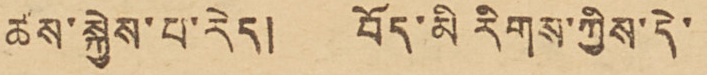ཚས་སྐྱེས་པ་རེད། བོད་མི རིགས་ཀྱིས་དེ་
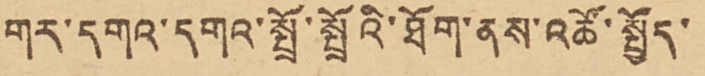གར་དགའ་དགའ་སྤྲོ་སྤྲོའི་ཐོག་ནས་འཚོ་སྤྱོད་
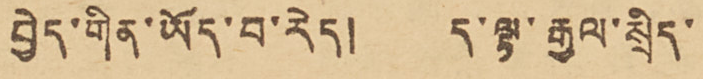བྱེད་གིན་ཡོད་བ་རེད། ད་ལྟ་རྒྱལ་སྲིད་
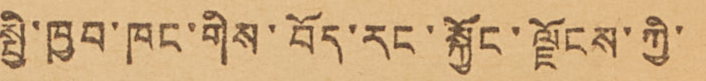སྤྱི་ཁྱབ་ཁང་གིས་བོད་རང་སྐྱོང་ལྗོངས་ཀྱི་
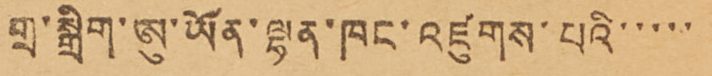གྲ་སྒྲིག་ཨུ་ཡོན་ལྷན་ཁང་འཛུགས་པའི་་་་་
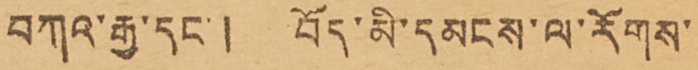བཀའ་རྒྱ་དང་། བོད་མི་དམངས་ལ་རོགས་
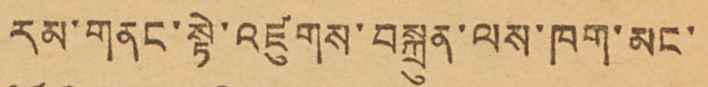རམ་གནང་སྟེ་འཛུགས་བསྐྲུན་ལས་ཁག་མང་
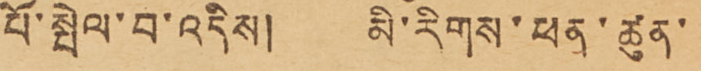པོ་སྤེལ་བ་འདིས། མི་རིགས་ཕན་ཚུན་
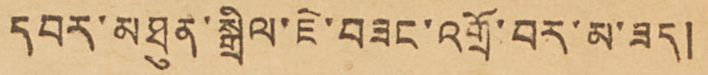དབར་མཐུན་སྒྲིལ་ཇེ་བཟང་འགྲོ་བར་མ་ཟད།
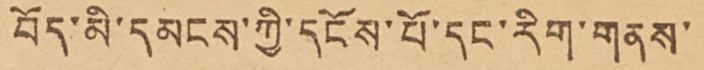བོད་མི་དམངས་ཀྱི་དངོས་པོ་དང་རིག་གནས་
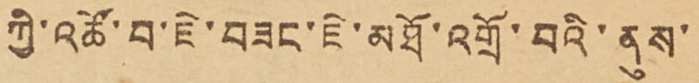ཀྱི་འཚོ་བ་ཇེ་བཟང་ཇེ་མཐོ་འགྲོ་བའི་ནུས་
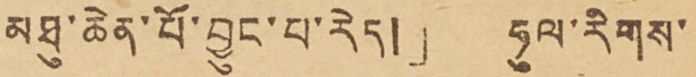མཐུ་ཆེན་པོ་བྱུང་པ་རེད།」 ཧུལ་རིགས་
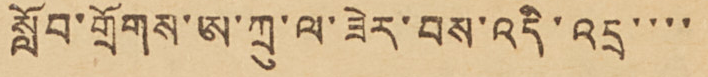སློབ་གྲོགས་ཨ་ཀྲུ་ལ་ཟེར་བས་འདི་འདྲ་་་་
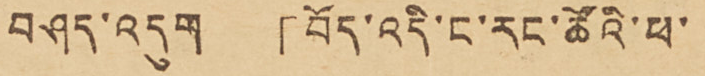བཤད་འདུག 「བོད་འདི་ང་རང་ཚོའི་ཕ་
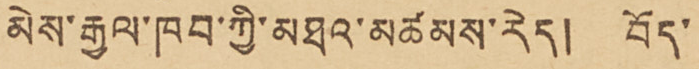མེས་རྒྱལ་ཁབ་ཀྱི་མཐའ་མཚམས་རེད། བོད་
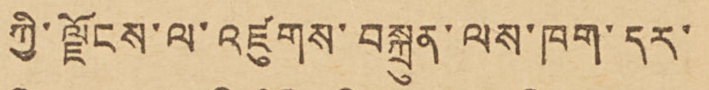ཀྱི་ལྗོངས་ལ་འཛུགས་བསྐྲུན་ལས་ཁག་དར་
